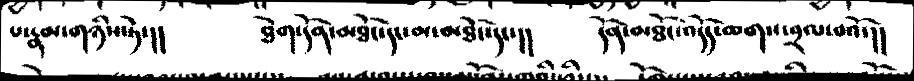པ་རྣམ་གཉིས་ཏེ་།།   ཐེག་དོན་མཐོང་དང་མ་མཐོང་དང་།།    དོན་མཐོང་འདོད་ཆགས་བྲལ་བའོ་།།
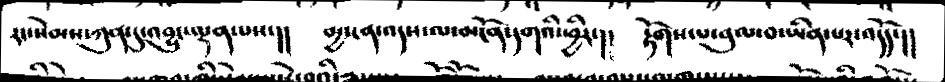རང་སེམས་ཀུན་དུ་འབྱུང་ལྡན་པས་།     མྱ་ངན་འདས་ལ་མངོན་དགའི་ཕྱིར་།།    རྟོགས་པ་བུལ་བ་ཡིན་པར་འདོད་།།
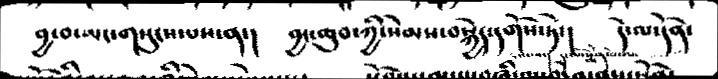བྱ་བ་ཡང་གསུངས་པས་ན་།     བྱང་ཆུབ་ཀྱི་སེམས་བསྐྱེད་དགོས་ཏེ་།    དེ་ལ་དོན་
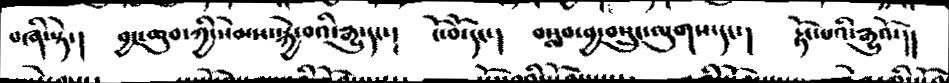བཞི་སྟེ་།   བྱང་ཆུབ་ཀྱི་སེམས་སྐྱེ་བའི་རྒྱུ་དང་།     ངོ་བོ་དང་།   བསླབ་བྱ་བསྲུང་ལུགས་དང་།    རྟོག་པའི་རྒྱུའོ་།།
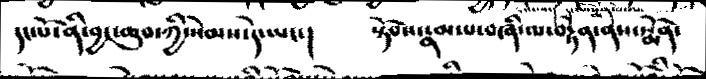དང་པོ་ན་ིབྱང་ཆུབ་ཀྱི་སེམས་དེ་ཡང་།     སྟོབས་རྣམས་པ་བཞི་ལ་བརྟེན་ནས་སྨོན་
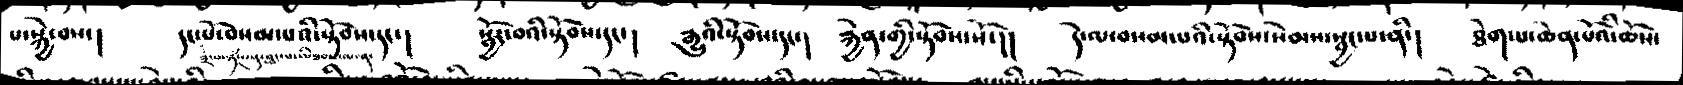པ་སྐྱེ་བས་།  དང་པོ་བསང་པའི་སྟོབས་དང་།  སྦྱོར་བའི་སྟོབས་དང་།   རྒྱུའི་སྟོབས་དང་།  རྐྱེན་གྱི་སྟོབས་སོ་།།  དེ་ལ་བསམ་པའི་སྟོབས་སེམས་སྦྱངས་ནི་།   ཐེག་པ་ཆེན་པོའི་ཆོས་
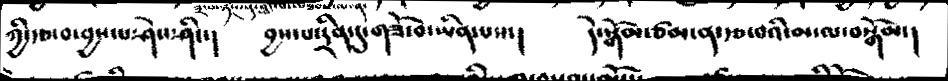ཀྱི་རྩ་བ་བྱས་པ་ཤེས་ཤིང་།  བྱས་པ་དྲིན་དུ་གཟོ་བ་ཡིན་པས་།  དེ་སྒོམ་ཙམ་ན་རྩ་བའི་མ་ལ་བསྒོམ་།
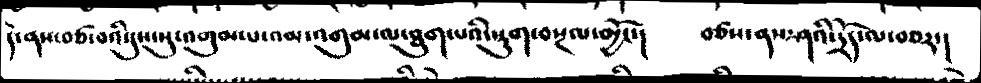དེ་ནས་བཙ་བའི་དུས་སུ་འགུམ་པ་འམ་འགུམ་ལ་ཐུག་པའི་སྡུག་བསྔལ་མྱོང་།  བཙས་ནས་ཤའི་དྲོད་ལ་བཅར་།
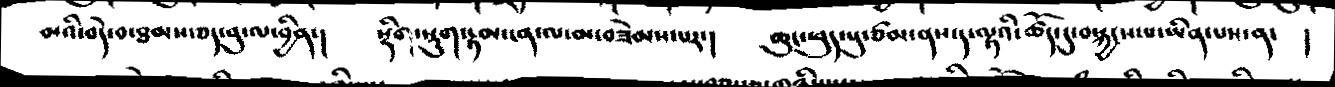མའི་བདེ་བ་ཐབས་ཅད་བུ་ལ་བྱིན་།  སྡིག་སྡུག་རྟམ་ངན་ལ་མ་བཟོམས་པར་།   ཆུང་ཕུད་སུ་ཙམ་ནས་ད་ལྟའི་ཚོད་དུ་བསྐྱངས་པ་ཡིན་པས་ན་  །
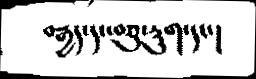བརྒྱད་དང་བཅུ་དྲུག་དང་།
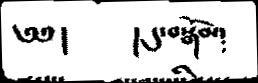༅༅།       །  དུ་བསྒོམ༴
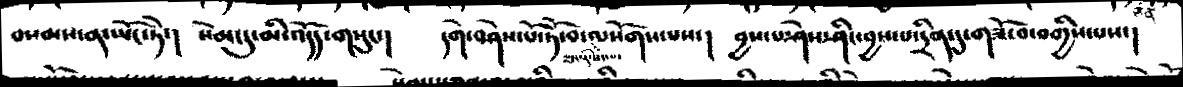བསམས་ན་ཡོང་ཏེ་།   སེམ་དུ་མི་འདོད་གསུང་།   དགེ་བཤེས་པོ་ཏོ་བ་ལསོགས་པས་།   བྱས་པ་ཤེས་ཤིང་བྱས་པ་དྲིན་དུ་གཟོ་བ་བགྱིས་པས་།
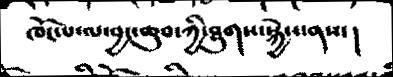ཁོང་པ་ལ་བྱང་ཆུབ་ཀྱི་ཐུགས་སྐྱེས་ནས་།
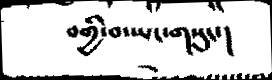བགྱི་བ་ཡང་གསུང་།
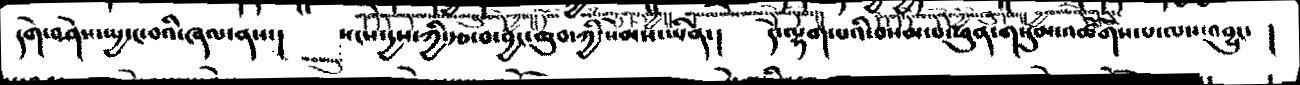དགེ་བཤེས་སྤྱ་ང་བའི་ཞལ་ནས་།  བཅས་སུ་སངས་རྱས་ཀྱི་རྩ་བ་བྱང་ཆུབ་ཀྱི་སེམས་ཡིན་།  དེ་ལྷག་པའི་བསམ་པ་ཕུན་གསུམ་འཚོགས་པ་ལས་འབྱུང་  །
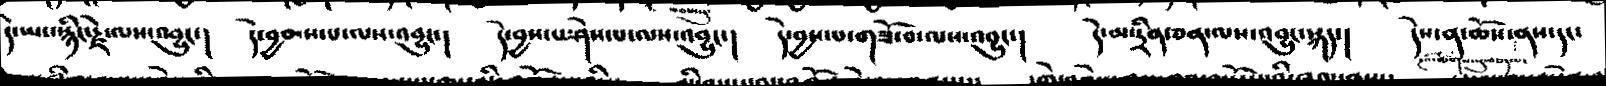དེ་ཡང་སྙིང་རྗེ་ལས་འབྱུང་།  དེ་བྱམས་པ་ལས་འབྱུང་།  དེ་བྱས་པ་ཤེས་པ་ལས་འབྱུང་།  དེ་བྱས་པ་གཟོ་ན་ལས་འབྱུང་།   དེ་མ་དྲིན་ཅན་ལས་འབྱུང་སྐད་།   དེས་ན་ཆོས་ལྔའི་ཚིགས་སུ་བཅད་པ་ནས་དང་
